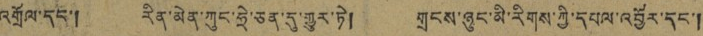འགྲོལ་དང་། རིན་མེན་ཀུང་ཧྲེ་ཅན་དུ་གྱུར་ཏེ། གྲངས་ཉུང་མི་རིགས་ཀྱི་དཔལ་འབྱོར་དང་།
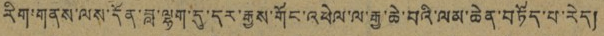རིག་གནས་ལས་དོན་བླ་ལྷག་དུ་དར་རྒྱས་གོང་འཕེལ་ལ་རྒྱ་ཆེ་བའི་ལམ་ཆེན་བཏོད་པ་རེད།
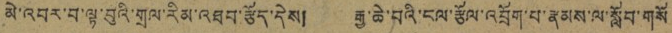མེ་འབར་བ་ལྟ་བུའི་གྲལ་རིམ་འཐབ་རྩོད་དེས། རྒྱ་ཆེ་བའི་ངལ་རྩོལ་འབྲོག་པ་རྣམས་ལ་སློབ་གསོ
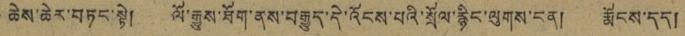ཆེས་ཆེར་བཏང་སྟེ། ལོ་རྒྱུས་ཐོག་ནས་བརྒྱུད་དེ་འོངས་བའི་སྲོལ་རྙིང་ལུགས་ངན། རྨོངས་དད།
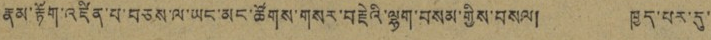རྣམ་རྟོག་འཛིན་པ་བཅས་ལ་ཡང་མང་ཚོགས་གསར་བརྗེའི་ལྷག་བསམ་གྱིས་བསལ། ཁྱད་པར་དུ་
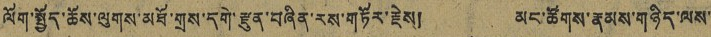ལོག་སྤྱོད་ཆོས་ལུགས་མཐོ་གྲས་དགེ་རྫུན་བཞིན་རས་གཏོར་རྗེས། མང་ཚོགས་རྣམས་གཉིད་ལས་
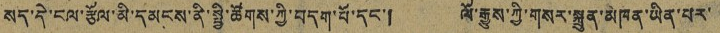སད་དེ་ངལ་རྩོལ་མི་དམངས་ནི་སྤྱི་ཚོགས་ཀྱི་བདག་པོ་དང་། ལོ་རྒྱུས་ཀྱི་གསར་སྐྲུན་མཁན་ཡིན་པར་
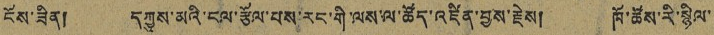ངོས་ཟིན། དཀྱུས་མའི་ངལ་རྩོལ་པས་རང་གི་ལས་ལ་ཚོད་འཛིན་བྱས་རྗེས། ཁོ་ཚོས་རི་སྙིལ་
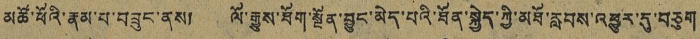མཚོ་ཕོའི་རྣམ་པ་བཟུང་ནས། ལོ་རྒྱུས་ཐོག་སྔོན་བྱུང་མེད་པའི་ཐོན་སྐྱེད་ཀྱི་མཐོ་རླབས་འཕྱུར་དུ་བཅུག
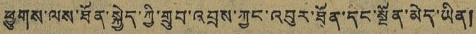ཕྱུགས་ལས་ཐོན་སྐྱེད་ཀྱི་གྲུབ་འབྲས་ཀྱང་འབུར་ཐོན་དང་སྔོན་མེད་ཡིན།
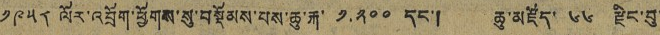༡༩༥༨ ལོ་འབྲོག་ཕྱོགས་སུ་བསྡོམས་པས་ཆུ་རྐ་ ༡.༢༠༠ དང་། ཆུ་མཛོད་ ༦༦ རྫིང་བུ་
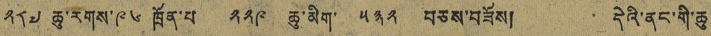༢༨༧ ཆུ་རགས་ ༩༦ ཁྲོན་པ་ ༢༢༩ ཆུ་མིག་ ༥༣༢ བཅས་བཟོས། དེའི་ནང་གི་ཆུ
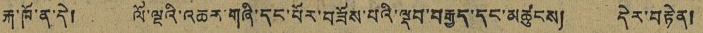རྐ་ཁོ་ན་དེ། ལོ་ལྔའི་འཆར་གཞི་དང་པོར་བཟོས་པའི་ལྡབ་བརྒྱད་དང་མཚུངས། དེར་བརྟེན།
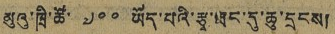མུའུ་ཁྲི་ཚོ་ ༧༠༠ ཡོད་པའི་རྩྭ་ཐང་དུ་ཆུ་དྲངས།
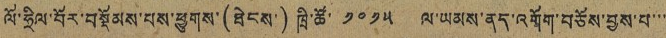ལོ་ཧྲིལ་པོར་བསྡོམས་པས་ཕྱུགས་(ཐེངས་) ཁྲི་ཚོ་ ༡༠༡༥ ལོ་ཡམས་ནད་འགོག་བཅོས་བྱས་པ་་་
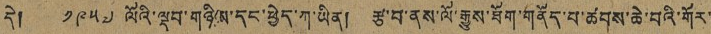དེ། ༡༩༥༧ ལོའི་ལྡབ་གཉིས་དང་ཕྱེད་ཀ་ཡིན། རྩ་བ་ནས་ལོ་རྒྱུས་ཐོག་གནོད་པ་ཚབས་ཆེ་བའི་གོར་
